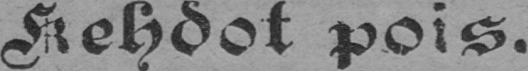Kehdot pois.
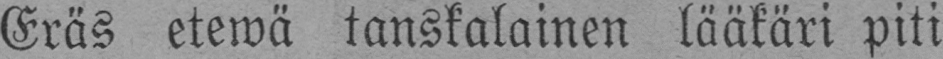Eräs etewä tanskalainen lääkäri piti
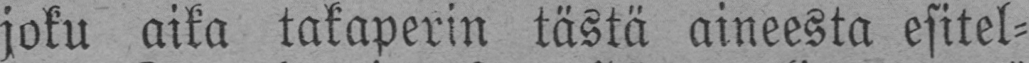joku aika takaperin tästä aineesta esitel-
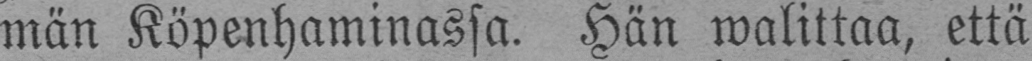män Köpenhaminassa. Hän walittaa, että
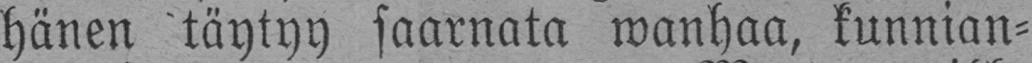hänen täytyy saarnata wanhaa, kunnian-
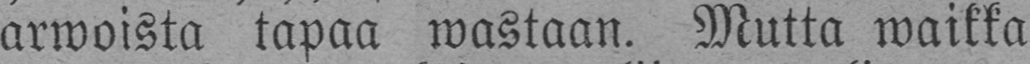arwoista tapaa wastaan. Mutta waikka
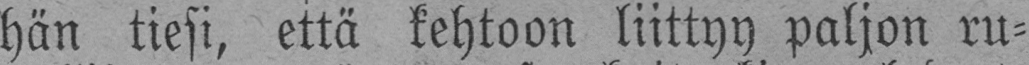hän tiesi, että kehtoon liittyy paljon ru-
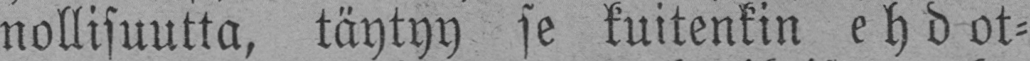nollisuutta, täytyy se kuitenkin ehdot-
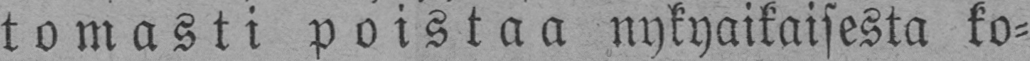tomasti poistaa nykyaikaisesta ko-
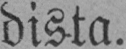dista.
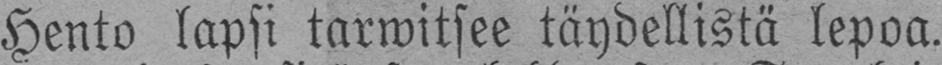Hento lapsi tarwitsee täydellistä lepoa.
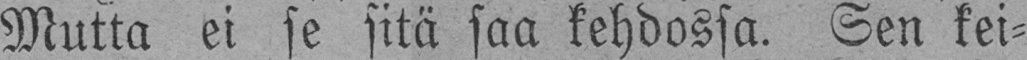Mutta ei se sitä saa kehdossa. Sen kei-
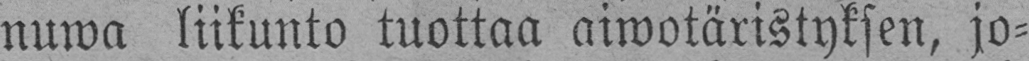nuwa liikunto tuottaa aiwotäristyksen, jo-
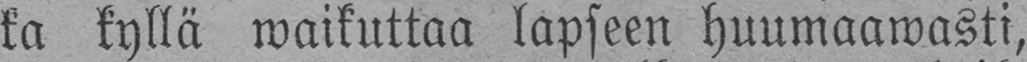ka kyllä waikuttaa lapseen huumaawasti,
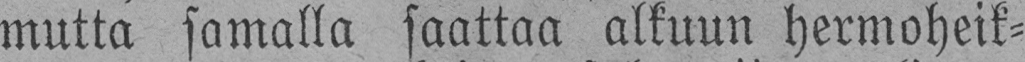mutta samalla saattaa alkuun hermoheik-
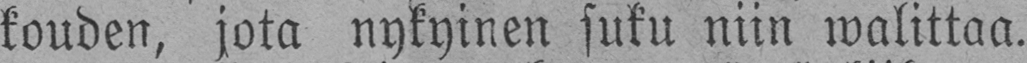kouden, jota nykyinen suku niin walittaa.
